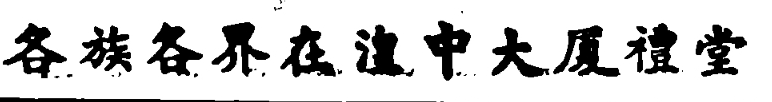各族各界在湟中大廈禮堂
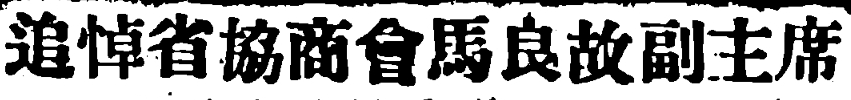追悼省協商會馬良故副主席
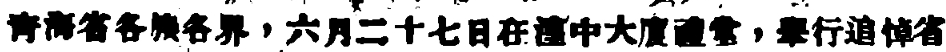靑海省各族各界，六月二十七日在湟中大廈禮堂，舉行追悼省
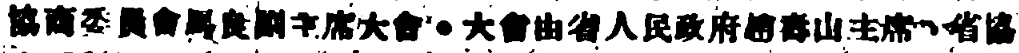協商委員會馬良副主席大會。大會由省人民政府趙壽山主席，省協
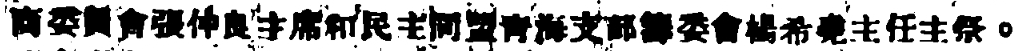商委員會張仲良主席和民主同蒙靑海支部籌委會楊希堯主任主祭。
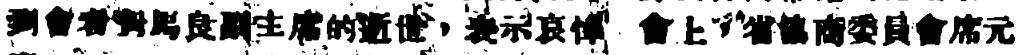到會者對馬良副主席的逝世，表示哀悼。會上，省協商委員會席元
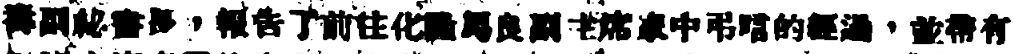壽副祕書長，報告了前往化隆馬良副主席家中弔唁的經過，並帶有
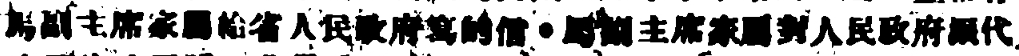馬副主席家屬給省人民政府寫的信。馬副主席家屬對人民政府派代
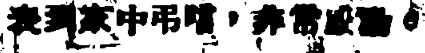表到家中弔唁，非常感動。
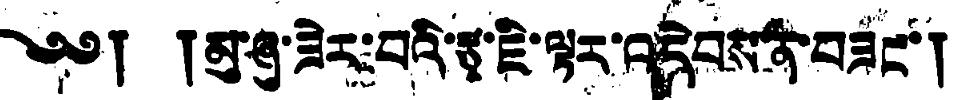༄༅། །མུ་ཞུ་ཟེར་བའི་རྩྭ་ཇི་ལྟར་འདེབས་ན་བཟང་།
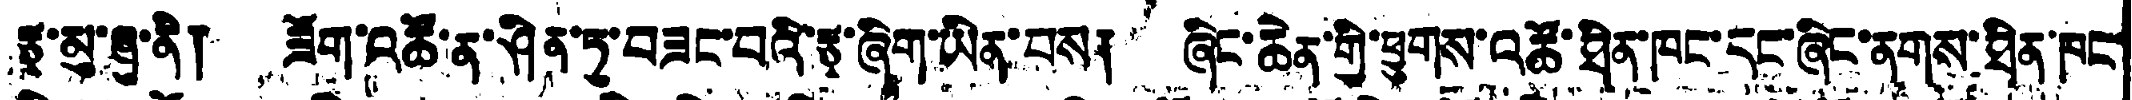རྩྭ་མུ་ཞུ་ནི། ཟོག་འཚོ་ན་ཤིན་དུ་བཟང་བའི་རྩྭ་ཞིག་ཡིན་པས། ཞིང་ཆེན་གྱི་ཕྱུགས་འཚོ་ཐིན་ཁང་དང་ཞིང་ནགས་ཐིན་ཁང་
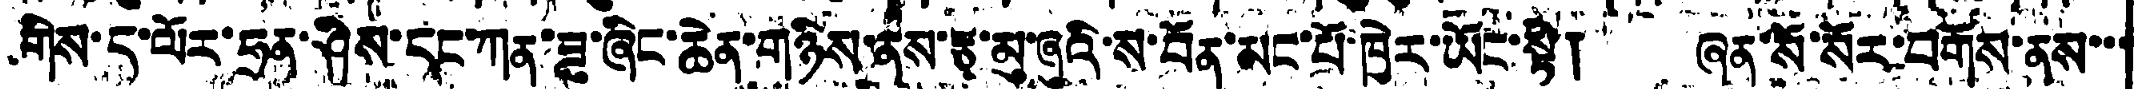གིས་ད་ལོར་ཧྲན་ཤིས་དང་ཀན་ཟུ་ཞིང་ཆེན་གཉིས་ནས་རྩྭ་མུ་ཞུའི་ས་བོན་མང་པོ་ཁྱེར་ཡོང་སྟེ། ཞན་སོ་སོར་བགོས་ནས་་་
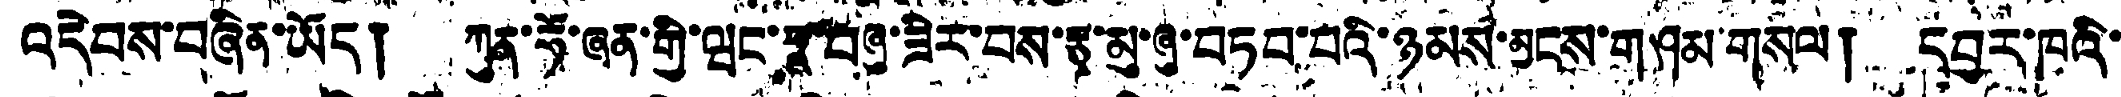འདེབས་བཞིན་ཡོད། ཀུན་ཧོ་ཞན་གྱི་ཝང་ཧཱ་བཞུ་ཟེར་བས་རྩྭ་མུ་ཞུ་བཏབ་བའི་ཉམས་མྱངས་གཤམ་གསལ། དབྱར་ཁའི་
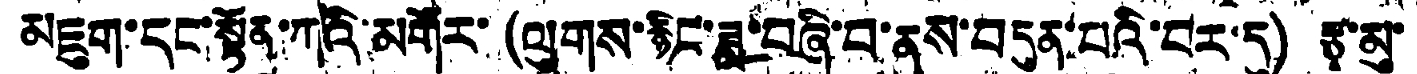མཇུག་དང་སྟོན་ཀའི་མགོར་(ལུགས་རྙིང་ཟླ་བཞི་བ་ནས་བདུན་པའི་བར་དུ) རྩྭ་མུ་
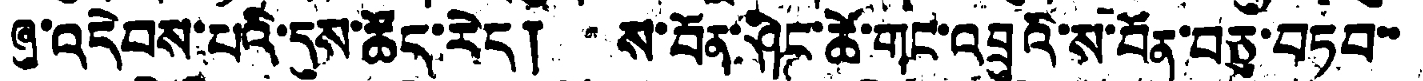ཞུ་འདེབས་པའི་དུས་ཚོད་རེད། ས་བོན་ཤིང་ཚོ་གང་འབྲུའི་ས་བོན་བཅུ་བཏབ་་
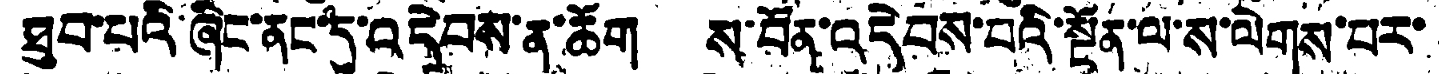ཐུབ་པའི་ཞིང་ནང་དུ་འདེབས་ན་ཆོག ས་བོན་འདེབས་པའི་སྔོན་ལ་ས་ལེགས་པར་
